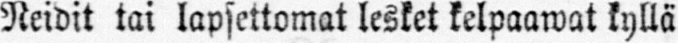Neidit tai lapsettomat lesket kelpaawat kyllä
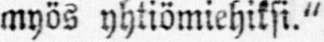myös yhtiömiehiksi."
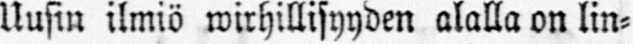Uusin ilmiö wirhillisyyden alalla on lin-
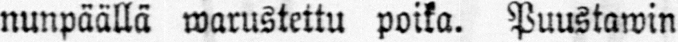nunpäällä warustettu poika. Puustawin
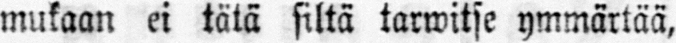mukaan ei tätä siltä tarwitse ymmärtää,
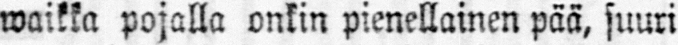waikka pojalla onkin pienellainen pää, suuri
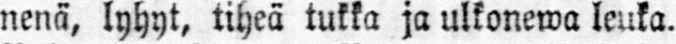nenä, lyhyt, tiheä tukka ja ulkonewa leuka.
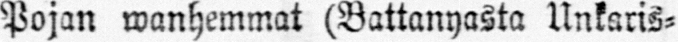Pojan wanhemmat (Battanyasta Unkaris-
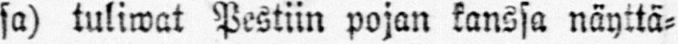sa) tuliwat Pestiin pojan kanssa näyttä-
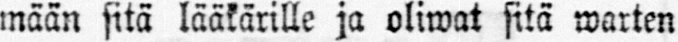mään sitä lääkärille ja oliwat sitä warten
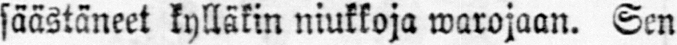säästäneet kylläkin niukkoja warojaan. Sen
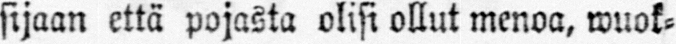sijaan että pojasta olisi ollut menoa, wuok-
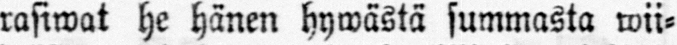rasiwat he hänen hywästä summasta wii-
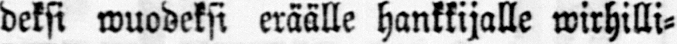deksi wuodeksi eräälle hankkijalle wirhilli-
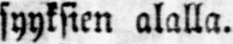syyksien alalla.
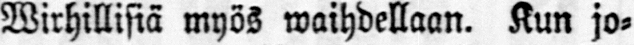Wirhillisiä myös waihdellaan. Kun jo-
